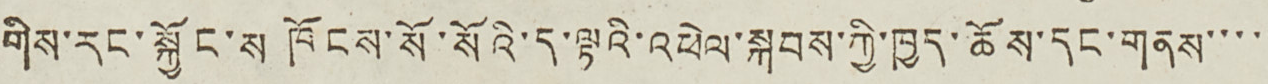གིས་རང་སྐྱོང་ས ཁོངས་སོ་སོའི་ད་ལྟའི་འཕེལ་སྐབས་ཀྱི་ཁྱད་ཆོས་དང་གནས་་་་་
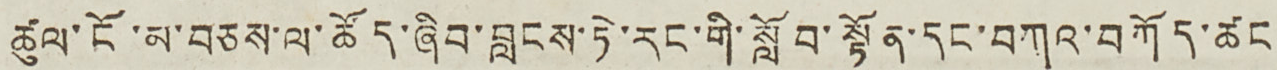ཚུལ་ངོ་མ་བཅས་ལ་ཚོད་ཞིབ་བླངས་ཏེ་རང་གི་སློབ་སྟོན་དང་བཀའ་བཀོད་ཚང་
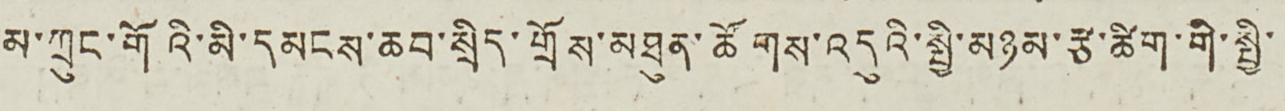མ་ཀྲུང་གོའི་མི་དམངས་ཆབ་སྲིད་གྲོས་མཐུན་ཚོགས་འདུའི་སྤྱི་མཉམ་རྩ་ཚིག་གི་སྤྱི་
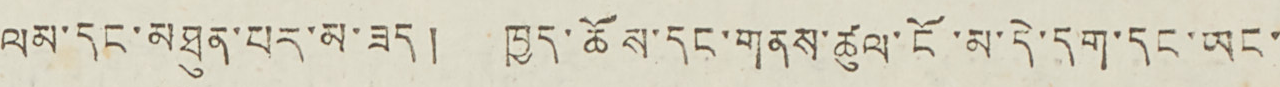ལམ་དང་མཐུན་པར་མ་ཟད། ཁྱད་ཆོས་དང་གནས་ཚུལ་ངོ་མ་དེ་དག་དང་ཡང་
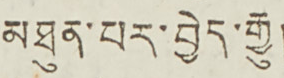མཐུན་པར་བྱེད་རྒྱུ།
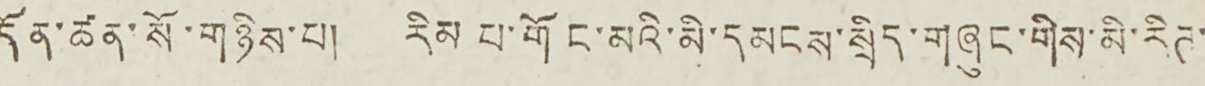དོན་ཚན་སོ་གཉིས་པ། རིམ པ་གོང་མའི་མི་དམངས་སྲིད་གཞུང་གིས་མི་རིཊ་
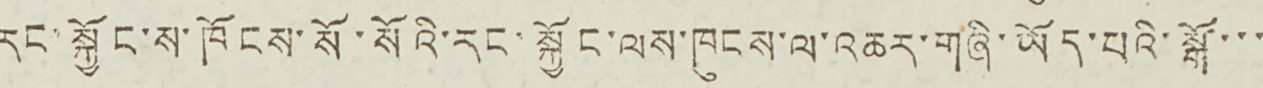རང་སྐྱོང་ས་ཁོངས་སོ་སོའི་རང་སྐྱོང་ལས་ཁུངས་ལ་འཆར་གཞི་ཡོད་པའི་སྒོ་་་
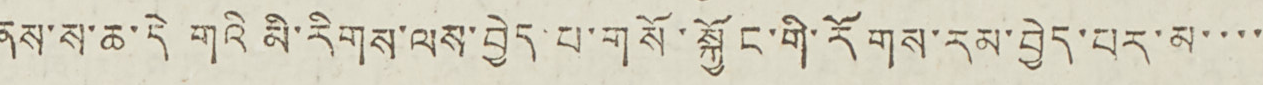ནས་ས་ཆ་དེ གའི་མི་རིགས་ལས་བྱེད་པ་གསོ་སྐྱོང་གི་རིགས་རམ་བྱེད་པར་མ་་་་
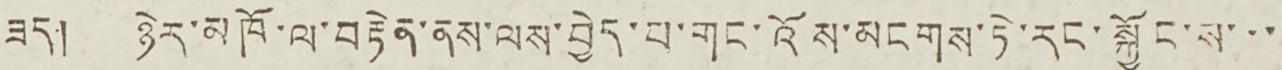ཟད། ཉེར་མཁོ་ལ་བརྟེན་ནས་ལས་བྱེད་པ་གང་འོས་མངགས་ཏེ་རང་སྐྱོང་ས་་་
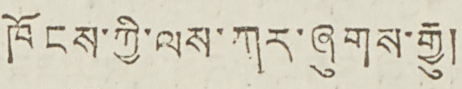ཁོངས་ཀྱི་ལས་ཀྲ་ཞུགས་རྒྱུ།
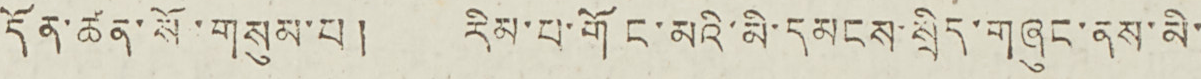དོན་ཚན་སོ་གསུམ་པ། རིམ་པ་གོང་མའི་མི་དམངས་སྲིད་གཞུང་ནས་མི་
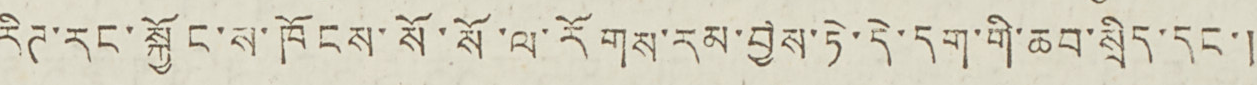རིཊ་རང་སྐྱོང་ས་ཁོངས་སོ་སོ་ལ་རོགས་རམ་བྱས་ཏེ་དེ་དག་གི་ཆབ་སྲིད་དང་།
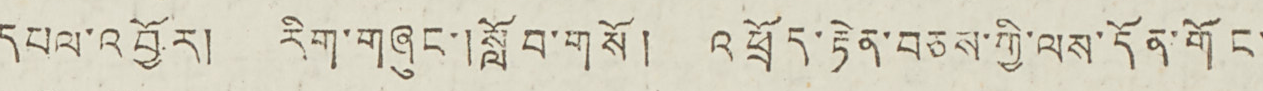དཔལ་འབྱོར། རིག་གཞུང་། སློབ་གསོ། འཕྲོད་རྟེན་བཅས་ཀྱི་ལས་དོན་གོང་
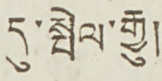དུ་སྤེལ་རྒྱུ།
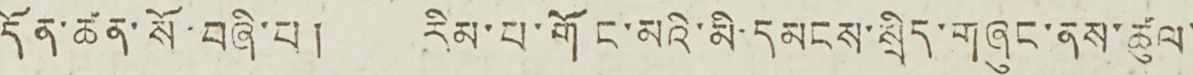དོན་ཚན་སོ་བཞི་པ། རིམ་པ་གོང་མའི་མི་དམངས་སྲིད་གཞུང་ནས་ཚུལ་
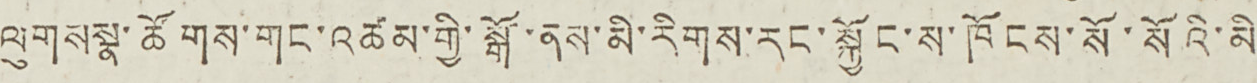ལུགསསྣ་ཚོགས་གང་འཚམ་གྱི་སྒོ་ནས་མི་རིགས་རང་སྐྱོང་ས་ཁོངས་སོ་སོའི་མི་
